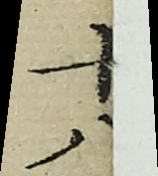十八
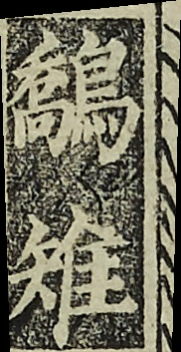鷮雉
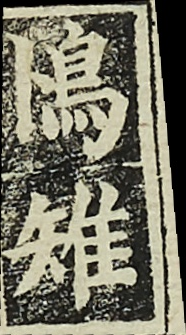鳪雉
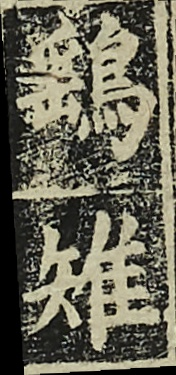鷂雉
